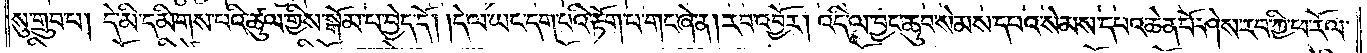སུ་གྲུབ་པ། དེ་མི་དམིགས་པའི་ཚུལ་གྱིས་སྒོམ་པ་བྱེད་དོ། །དེ་ལ་ཡང་དག་པའི་རྟོག་པ་གང་ཞེ་ན། རབ་འབྱོར། འདི་ལ་བྱང་ཆུབ་སེམས་དཔའ་སེམས་དཔའ་ཆེན་པོ་ཤེས་རབ་ཀྱི་ཕ་རོལ་
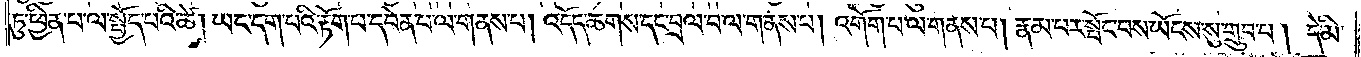ཏུ་ཕྱིན་པ་ལ་སྤྱོད་པའི་ཆེ། ཡང་དག་པའི་རྟོག་པ་དབེན་པ་ལ་གནས་པ། འདོད་ཆགས་དང་བྲལ་བ་ལ་གནས་པ། འགོག་པ་ལ་གནས་པ། རྣམ་པར་སྤོང་བས་ཡོངས་སུ་གྲུབ་པ། དེ་མི་
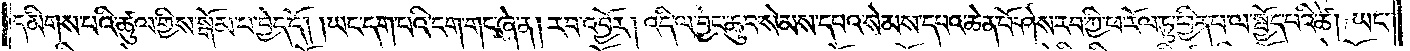དམིགས་པའི་ཚུལ་གྱིས་སྒོམ་པ་བྱེད་དོ། །ཡང་དག་པའི་ངག་གང་ཞེ་ན། རབ་འབྱོར། འདི་ལ་བྱང་ཆུབ་སེམས་དཔའ་སེམས་དཔའ་ཆེན་པོ་ཤེས་རབ་ཀྱི་ཕ་རོལ་ཏུ་ཕྱིན་པ་ལ་སྤྱོད་པའི་ཚེ། ཡང་
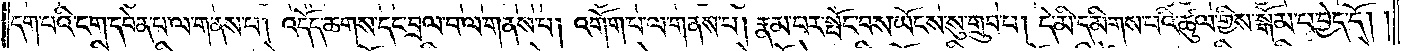དག་པའི་ངག་དབེན་པ་ལ་གནས་པ། འདོད་ཆགས་དང་བྲལ་བ་ལ་གནས་པ། འགོག་པ་ལ་གནས་པ། རྣམ་པར་སྤོང་བས་ཡོངས་སུ་གྲུབ་པ། དེ་མི་དམིགས་པའི་ཚུལ་གྱིས་སྒོམ་པ་བྱེད་དོ། །
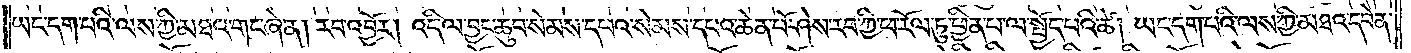ཡང་དག་པའི་ལས་ཀྱི་མཐའ་གང་ཞེ་ན། རབ་འབྱོར། འདི་ལ་བྱང་ཆུབ་སེམས་དཔའ་སེམས་དཔའ་ཆེན་པོ་ཤེས་རབ་ཀྱི་ཕ་རོལ་ཏུ་ཕྱིན་པ་ལ་སྤྱོད་པའི་ཚེ། ཡང་དག་པའི་ལས་ཀྱི་མཐའ་དབེན་
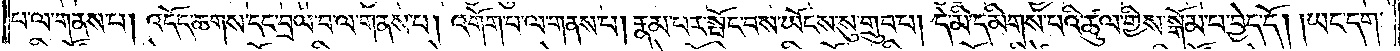པ་ལ་གནས་པ། འདོད་ཆགས་དང་བྲལ་བ་ལ་གནས་པ། འགོག་པ་ལ་གནས་པ། རྣམ་པར་སྤོང་བས་ཡོངས་སུ་གྲུབ་པ། དེ་མི་དམིགས་པའི་ཚུལ་གྱིས་སྒོམ་པ་བྱེད་དོ། །ཡང་དག་
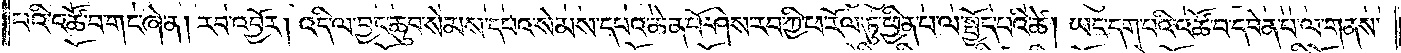པའི་འཚོ་བ་གང་ཞེ་ན། རབ་འབྱོར། འདི་ལ་བྱང་ཆུབ་སེམས་དཔའ་སེམས་དཔའ་ཆེན་པོ་ཤེས་རབ་ཀྱི་ཕ་རོལ་ཏུ་ཕྱིན་པ་ལ་སྤྱོད་པའི་ཚེ། ཡང་དག་པའི་འཚོ་བ་དབེན་པ་ལ་གནས་
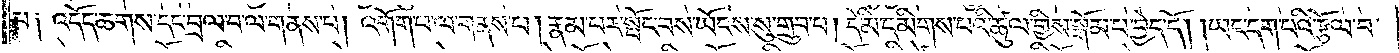པ། འདོད་ཆགས་དང་བྲལ་བ་ལ་གནས་པ། འགོག་པ་ལ་གནས་པ། རྣམ་པར་སྤོང་བས་ཡོངས་སུ་གྲུབ་པ། དེ་མི་དམིགས་པའི་ཚུལ་གྱིས་སྒོམ་པ་བྱེད་དོ། །ཡང་དག་པའི་རྩོལ་བ་
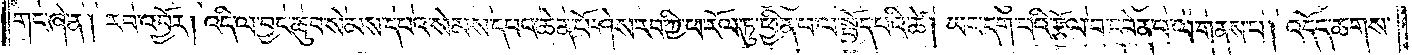གང་ཞེ་ན། རབ་འབྱོར། འདི་ལ་བྱང་ཆུབ་སེམས་དཔའ་སེམས་དཔའ་ཆེན་པོ་ཤེས་རབ་ཀྱི་ཕ་རོལ་ཏུ་ཕྱིན་པ་ལ་སྤྱོད་པའི་ཚེ། ཡང་དག་པའི་རྩོལ་བ་དབེན་པ་ལ་གནས་པ། འདོད་ཆགས་
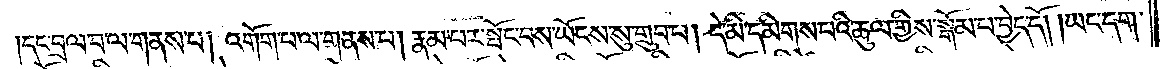དང་བྲལ་བ་ལ་གནས་པ། འགོག་པ་ལ་གནས་པ། རྣམ་པར་སྤོང་བས་ཡོངས་སུ་གྲུབ་པ། དེ་མི་དམིགས་པའི་ཚུལ་གྱིས་སྒོམ་པ་བྱེད་དོ། །ཡང་དག་
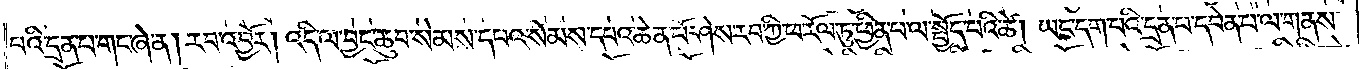པའི་དྲན་པ་གང་ཞེ་ན། རབ་འབྱོར། འདི་ལ་བྱང་ཆུབ་སེམས་དཔའ་སེམས་དཔའ་ཆེན་པོ་ཤེས་རབ་ཀྱི་ཕ་རོལ་ཏུ་ཕྱིན་པ་ལ་སྤྱོད་པའི་ཚེ། ཡང་དག་པའི་དྲན་པ་དབེན་པ་ལ་གནས་
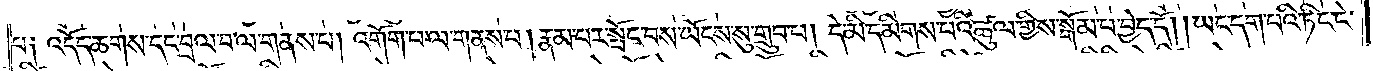པ། འདོད་ཆགས་དང་བྲལ་བ་ལ་གནས་པ། འགོག་པ་ལ་གནས་པ། རྣམ་པར་སྤོང་བས་ཡོངས་སུ་གྲུབ་པ། དེ་མི་དམིགས་པའི་ཚུལ་གྱིས་སྒོམ་པ་བྱེད་དོ། །ཡང་དག་པའི་ཏིང་ངེ་
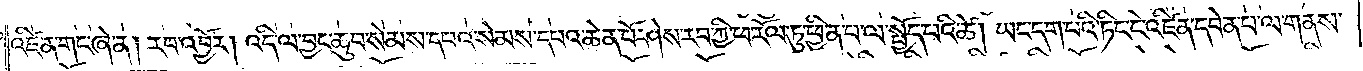འཛིན་གང་ཞེ་ན། རབ་འབྱོར། འདི་ལ་བྱང་ཆུབ་སེམས་དཔའ་སེམས་དཔའ་ཆེན་པོ་ཤེས་རབ་ཀྱི་ཕ་རོལ་ཏུ་ཕྱིན་པ་ལ་སྤྱོད་པའི་ཚེ། ཡང་དག་པའི་ཏིང་ངེ་འཛིན་དབེན་པ་ལ་གནས་
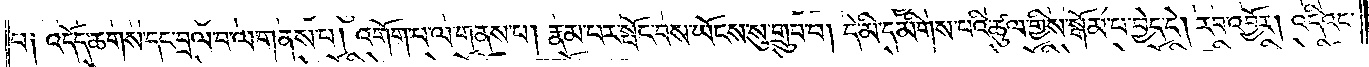པ། འདོད་ཆགས་དང་བྲལ་བ་ལ་གནས་པ། འགོག་པ་ལ་གནས་པ། རྣམ་པར་སྤོང་བས་ཡོངས་སུ་གྲུབ་པ་དེ་མི་དམིགས་པའི་ཚུལ་གྱིས་སྒོམ་པ་བྱེད་དོ། །རབ་འབྱོར། འདིའང་
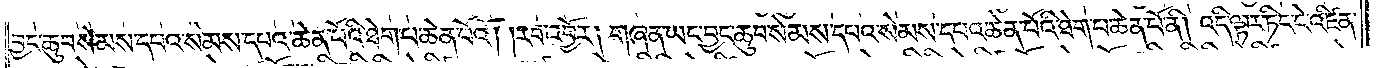བྱང་ཆུབ་སེམས་དཔའ་སེམས་དཔའ་ཆེན་པོའི་ཐེག་པ་ཆེན་པོའོ། །རབ་འབྱོར། གཞན་ཡང་བྱང་ཆུབ་སེམས་དཔའ་སེམས་དཔའ་ཆེན་པོའི་ཐེག་པ་ཆེན་པོ་ནི། འདི་ལྟར་ཏིང་ངེ་འཛིན་
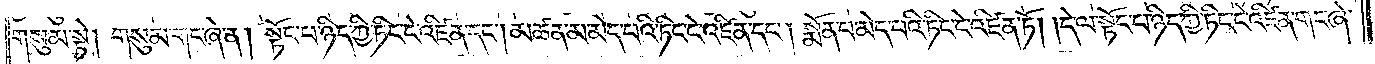གསུམ་སྟེ། གསུམ་གང་ཞེ་ན། སྟོང་པ་ཉིད་ཀྱི་ཏིང་ངེ་འཛིན་དང༌། མཚན་མ་མེད་པའི་ཏིང་ངེ་འཛིན་དང༌། སྨོན་པ་མེད་པའི་ཏིང་ངེ་འཛིན་ཏོ། །དེ་ལ་སྟོང་པ་ཉིད་ཀྱི་ཏིང་ངེ་འཛིན་གང་ཞེ་
